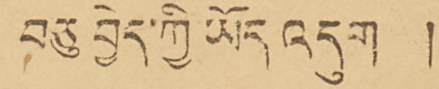བཅུ བྱེད་ཀྱི ཡོད འདུག །
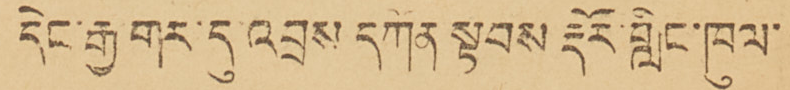དེང་རྒྱ་གར་དུ་འབྲས དཀོན སྟབས རྡོར་གླིང་ཁུལ་
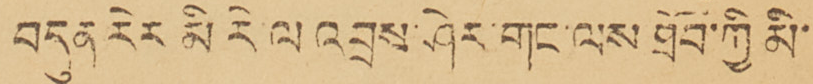བདུན རེར མི རི་ལ འབྲས་ཤེར་གང་ལས ཐོབ་ཀྱི མི་
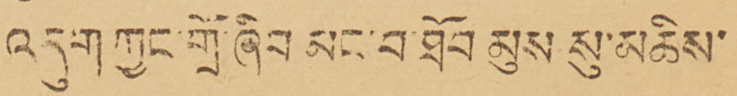འདུག ཀྱང་གྲོ་ཞིབ མང་བ་ཐོབ མུས སུ་མཆིས་
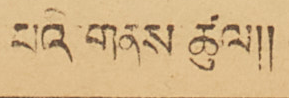པའི་གནས ཚུལ།།
